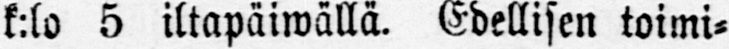k:lo 5 iltapäiwällä. Edellisen toimi-
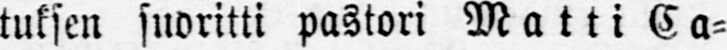tuksen suoritti pastori Matti Ca-
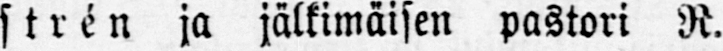strén ja jälkimäisen pastori R.
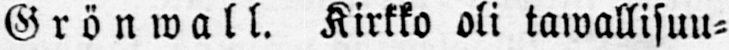Grönwall. Kirkko oli tawallisuu-
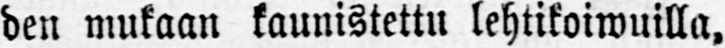den mukaan kaunistettu lehtikoiwuilla.
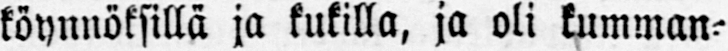köynnöksillä ja kukilla, ja oli kumman-
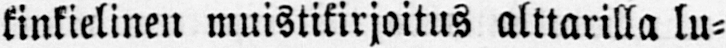kinkielinen muistikirjoitus alttarilla lu-
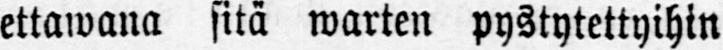ettawana sitä warten pystytettyihin
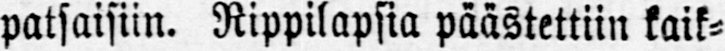patsaisiin. Rippilapsia päästettiin kaik-
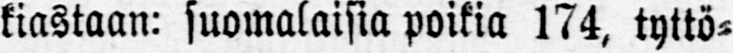kiastaan: suomalaisia poikia 174. tyttö-
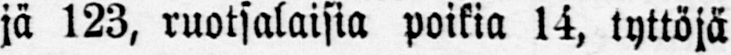jä 123, ruotsalaisia poikia 14, tyttöjä
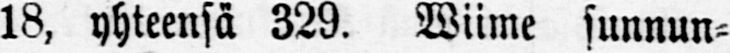18, yhteensä 329. Wiime sunnun-
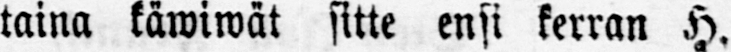taina käwiwät sitte ensi kerran H.
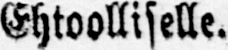Ehtoolliselle.
